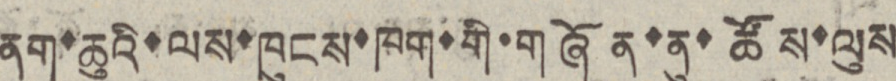ནག་ཆུའི་ལས་ཁུངས་ཁག་གི་གཞོན་ནུ་ཚོས་ལུས
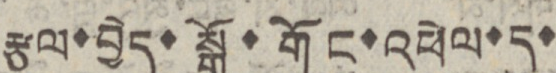རྩལ་བྱེད་སྒོ་གོང་འཕེལ་དུ་
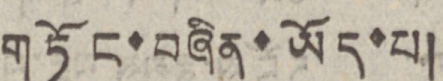གཏོང་བཞིན་ཡོད་པ།
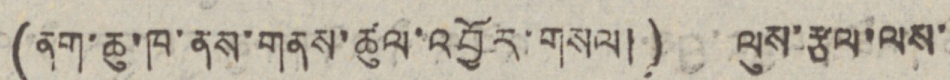(ནག་ཆུ་ཁ་ནས་གནས་ཚུལ་འབྱོར་གསལ།) ལུས་རྩལ་ལས་
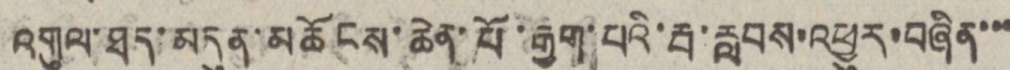འགུལ་ཐད་མདུན་མཆོངས་ཆེན་པོ་རྒྱག་པའི་རྦ་རླབས་འཕྱུར་བཞིན་་་
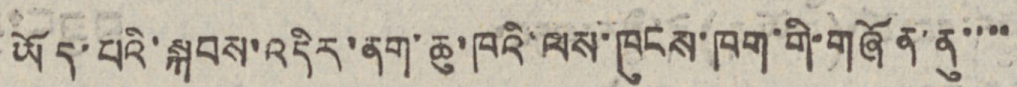ཡོད་པའི་སྐབས་འདིར་ནག་ཆུ་ཁའི་ལས་ཁུངས་ཁག་གི་གཞོན་ནུ་་་་
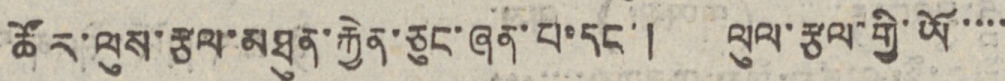ཚོར་ལུས་རྩལ་མཐུན་རྐྱེན་ཆུང་ཞན་པ་དང་། ལུལ་རྩལ་གྱི་ཡོ་་་་
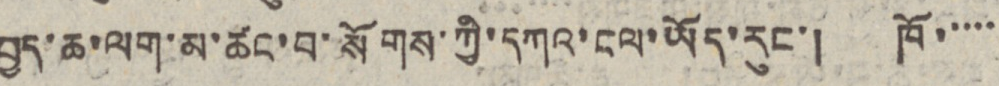བྱད་ཆ་ལག་མ་ཚང་བ་སོགས་ཀྱི་དཀའ་ངལ་ཡོད་རུང་། ཁོ་་་་་
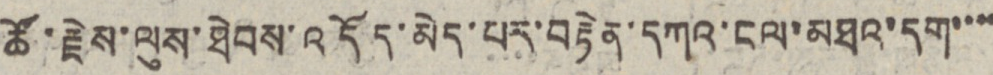ཚོ་རྗེས་ལུས་ཐེབས་འདོད་མེད་པར་བརྟེན་དཀའ་ངལ་མཐའ་དག་་་་
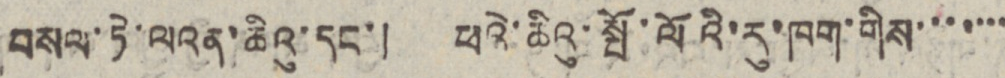བསལ་ཏེ་ལའན་ཆིའུ་དང་། ཕའེ་ཆིའུ་སྤོ་ལོའི་རུ་ཁག་གིས་་་་་་་
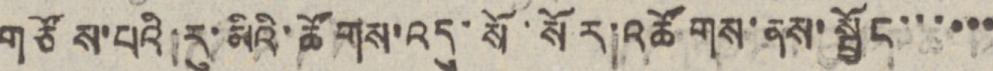གཙོས་པའི་རུ་མིའི་ཚོགས་འདུ་སོ་སོར་འཚོགས་ནས་སྦྱོང་་་་་་
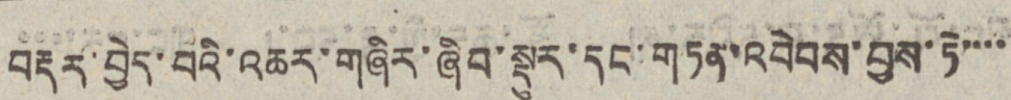བརྡར་བྱེད་པའི་འཆར་གཞིར་ཞིབ་སྡུར་དང་གཏན་འབེབས་བྱས་ཏེ་་་་
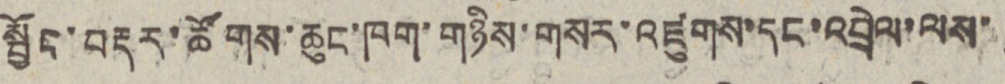སྦྱོང་བརྡར་ཚོགས་ཆུང་ཁག་གཉིས་གསར་འཛུགས་དང་འབྲེལ་ལས་
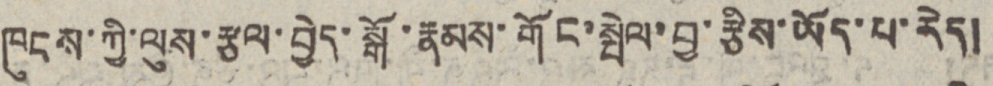ཁུངས་ཀྱི་ལུས་རྩལ་བྱེད་སྒོ་རྣམས་གོང་སྤེལ་བྱ་རྩིས་ཡོད་པ་རེད།
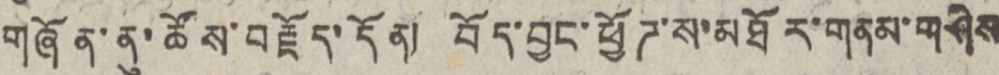གཞོན་ནུ་ཚོས་བརྗོད་དོན། བོད་བྱང་ཕྱོཊ་ས་མཐོར་གནམ་གཤིས
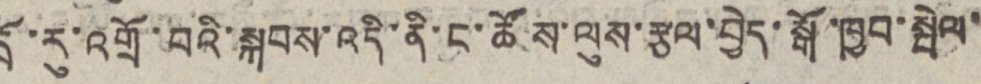དྲོ་རུ་འགྲོ་བའི་སྐབས་འདི་ནི་ང་ཚོས་ལུས་རྩལ་བྱེད་སྒོ་ཁྱབ་སྤེལ་
